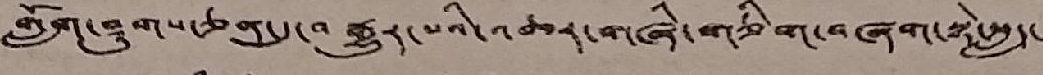གློག་ཤུགས་ཅན་དུ་བརྒྱུར་པའི་འཆར་གཞི་གཅིག་བཞག་སྟེ་སླད་
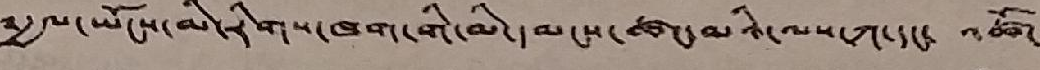༸རྒྱལ་ཡོངས་མི་རིགས་ཁག་གི་མི་དམངས་ཚང་མའི་ལས་ཀ་དང་ འཚོ་
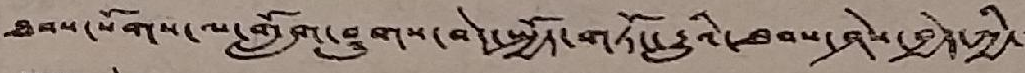ཐབས་སོགས་ལ་གློག་ཤུགས་བེད་སྤྱོད་གཏོང་རྒྱུའི་ཐབས་ཤེས་བྱེད་ཀྱི་་་
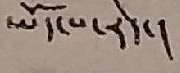ཡོད་པ་རེད་།
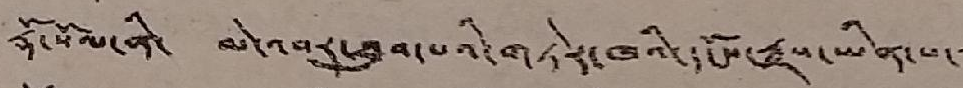རྡོ་སོལ་ནི་ མེ་འབར་ཐུབ་པའི་གཏེར་ཁའི་དངོས་རྫས་ཡིན་པ་་
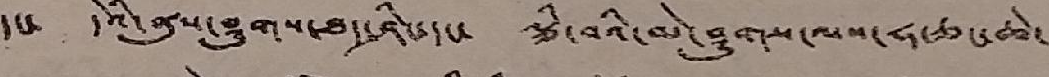དང་ དེའི་ནུས་ཤུགས་ཐད་ཤིང་དང་ ལྕི་བ་མེ་ཤུགས་ལས་ཧ་ཅང་ཆེ་
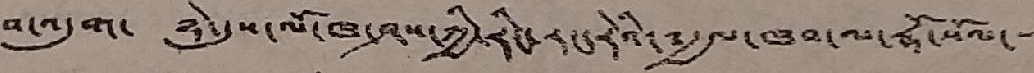བ་འདུག་ ཉེ་དུས་ལོ་ཁ་ཤས་ཀྱི་རིང་རང་རེའི་༸རྒྱལ་ཁབ་ལ་རྡོ་སོལ་་
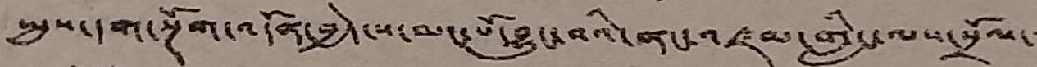སྤུས་དག་སྔོག་འདོན་བྱེད་ས་མང་པོ་བྱུང་བའི་ནང་འཛམ་གླིང་ལས་སྲོལ་་་
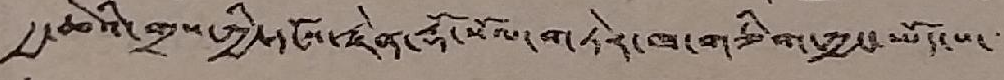རྒྱ་ཆེའི་གྲས་ཀྱི་དངོས་རྗེན་རྡོ་སོལ་གཏེར་ཁ་གཅིག་ཀྱང་ཡོད་པ་་་་་
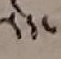རེད་
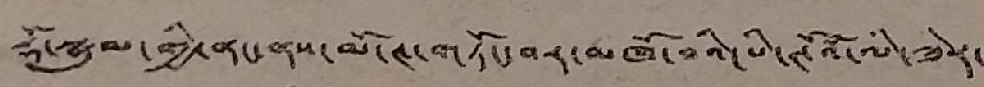རྡོ་སྣུམ་གྱི་ནང་ནས་མོ་ཊ་གཏོང་བར་མཁོ་བའི་པི་ཊོའོ་ལི་ཟེར་
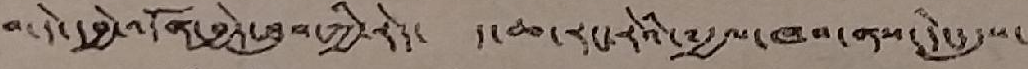བ་དེ་དབྱེ་འདོན་བྱེད་ཐུབ་ཀྱི་རེད་ ད་ཆ་རང་རེའི་༸རྒྱལ་ཁབ་ནས་དེང་དུས་་
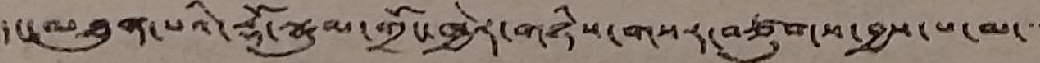དང་མཐུན་པའི་རྡོ་སྣུམ་གྲོང་ཁྱེར་གཉིས་གསར་བཙུགས་བྱས་པ་མ་་་
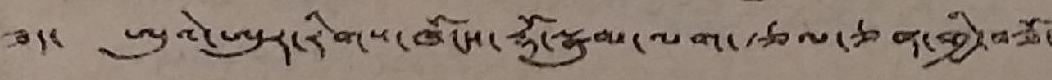ཟད་ ཨུའེ་ཨུར་རིགས་ཁོངས་རྡོ་སྣུམ་ལག་རྩལ་ཅན་གྱི་བཟོ་
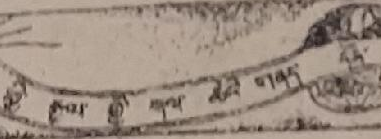ཕྱི་རྒྱལ་གྱི་གལ་ཆེའི་གནད་དོན་
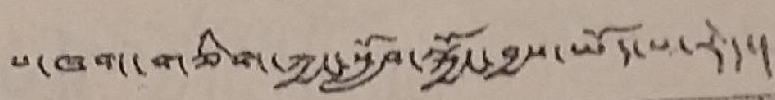པ་ཁག་གཅིག་ཀྱང་སློབ་སྐྱོང་བྱས་ཡོད་པ་རེད་།
